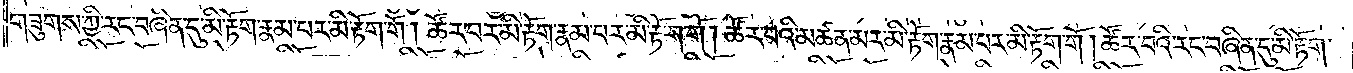གཟུགས་ཀྱི་རང་བཞིན་དུ་མི་རྟོག་རྣམ་པར་མི་རྟོག་གོ །ཚོར་བར་མི་རྟོག་རྣམ་པར་མི་རྟོག་གོ །ཚོར་བའི་མཚན་མར་མི་རྟོག་རྣམ་པར་མི་རྟོག་གོ །ཚོར་བའི་རང་བཞིན་དུ་མི་རྟོག་
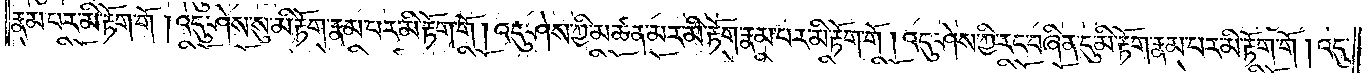རྣམ་པར་མི་རྟོག་གོ །འདུ་ཤེས་སུ་མི་རྟོག་རྣམ་པར་མི་རྟོག་གོ །འདུ་ཤེས་ཀྱི་མཚན་མར་མི་རྟོག་རྣམ་པར་མི་རྟོག་གོ །འདུ་ཤེས་ཀྱི་རང་བཞིན་དུ་མི་རྟོག་རྣམ་པར་མི་རྟོག་གོ །འདུ་
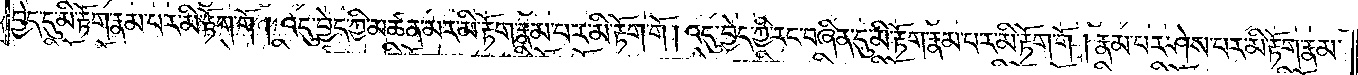བྱེད་དུ་མི་རྟོག་རྣམ་པར་མི་རྟོག་གོ །འདུ་བྱེད་ཀྱི་མཚན་མར་མི་རྟོག་རྣམ་བར་མི་རྟོག་གོ །འདུ་བྱེད་ཀྱི་རང་བཞིན་དུ་མི་རྟོག་རྣམ་པར་མི་རྟོག་གོ །རྣམ་པར་ཤེས་པར་མི་རྟོག་རྣམ་
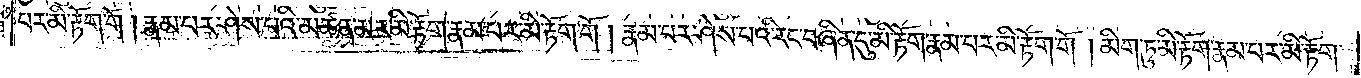པར་མི་རྟོག་གོ །རྣམ་པར་ཤེས་པའི་མཚན་མར་མི་རྟོག་རྣམ་པར་མི་རྟོག་གོ །རྣམ་པར་ཤེས་པའི་རང་བཞིན་དུ་མི་རྟོག་རྣམ་པར་མི་རྟོག་གོ །མིག་ཏུ་མི་རྟོག་རྣམ་པར་མི་རྟོག་
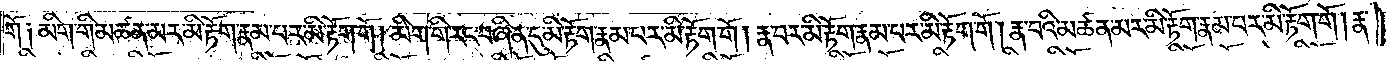གོ་༑མིག་གི་མཚན་མར་མི་རྟོག་རྣམ་པར་མི་རྟོག་གོ །མིག་གི་རང་བཞིན་དུ་མི་རྟོག་རྣམ་པར་མི་རྟོག་གོ །རྣ་བར་མི་རྟོག་རྣམ་པར་མི་རྟོག་གོ །རྣ་བའི་མཚན་མར་མི་རྟོག་རྣམ་པར་མི་རྟོག་གོ །རྣ་
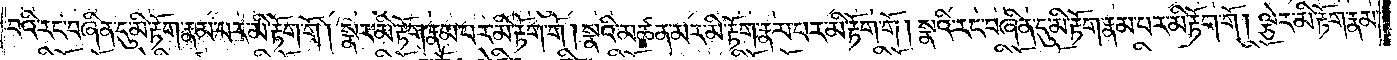བའི་རང་བཞིན་དུ་མི་རྟོག་རྣམ་པར་མི་རྟོག་གོ །སྣར་མི་རྟོག་རྣམ་པར་མི་རྟོག་གོ །སྣའི་མཚན་མར་མི་རྟོག་རྣམ་པར་མི་རྟོག་གོ །སྣའི་རང་བཞིན་དུ་མི་རྟོག་རྣམ་པར་མི་རྟོག་གོ །ལྕེར་མི་རྟོག་རྣམ་
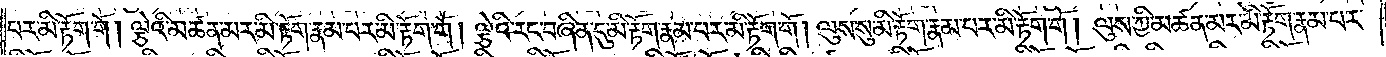པར་མི་རྟོག་གོ །ལྕེའི་མཚན་མར་མི་རྟོག་རྣམ་པར་མི་རྟོག་གོ །ལྕེའི་རང་བཞིན་དུ་མི་རྟོག་རྣམ་པར་མི་རྟོག་གོ །ལུས་སུ་མི་རྟོག་རྣམ་པར་མི་རྟོག་གོ །ལུས་ཀྱི་མཚན་མར་མི་རྟོག་རྣམ་པར་
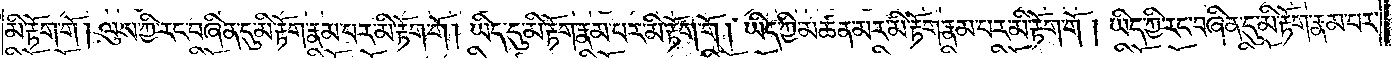མི་རྟོག་གོ །ལུས་ཀྱི་རང་བཞིན་དུ་མི་རྟོག་རྣམ་པར་མི་རྟོག་གོ །ཡིད་དུ་མི་རྟོག་རྣམ་པར་མི་རྟོག་གོ །ཡིད་ཀྱི་མཚན་མར་མི་རྟོག་རྣམ་པར་མི་རྟོག་གོ །ཡིད་ཀྱི་རང་བཞིན་དུ་མི་རྟོག་རྣམ་པར་
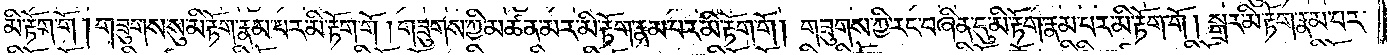མི་རྟོག་གོ །གཟུགས་སུ་མི་རྟོག་རྣམ་པར་མི་རྟོག་གོ །གཟུགས་ཀྱི་མཚན་མར་མི་རྟོག་རྣམ་པར་མི་རྟོག་གོ །གཟུགས་ཀྱི་རང་བཞིན་དུ་མི་རྟོག་རྣམ་པར་མི་རྟོག་གོ །སྒྲར་མི་རྟོག་རྣམ་པར་
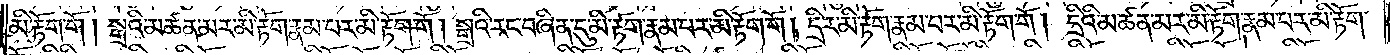མི་རྟོག་གོ །སྒྲའི་མཚན་མར་མི་རྟོག་རྣམ་པར་མི་རྟོག་གོ །སྒྲའི་རང་བཞིན་དུ་མི་རྟོག་རྣམ་པར་མི་རྟོག་གོ །དྲིར་མི་རྟོག་རྣམ་པར་མི་རྟོག་གོ །དྲིའི་མཚན་མར་མི་རྟོག་རྣམ་པར་མི་རྟོག་
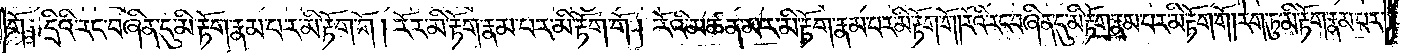གོ ༑དྲིའི་རང་བཞིན་དུ་མི་རྟོག་རྣམ་པར་མི་རྟོག་གོ །རོར་མི་རྟོག་རྣམ་པར་མི་རྟོག་གོ །རོའི་མཚན་མར་མི་རྟོག་རྣམ་པར་མི་རྟོག་གོ །རོའི་རང་བཞིན་དུ་མི་རྟོག་རྣམ་པར་མི་རྟོག་གོ །རེག་ཏུ་མི་རྟོག་རྣམ་པར་
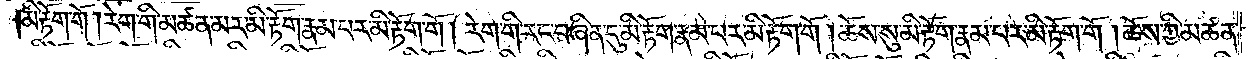མི་རྟོག་གོ །རེག་གི་མཚན་མར་མི་རྟོག་རྣམ་པར་མི་རྟོག་གོ །རེག་གི་རང་བཞིན་དུ་མི་རྟོག་རྣམ་པར་མི་རྟོག་གོ །ཆོས་སུ་མི་རྟོག་རྣམ་པར་མི་རྟོག་གོ །ཆོས་ཀྱི་མཚན་
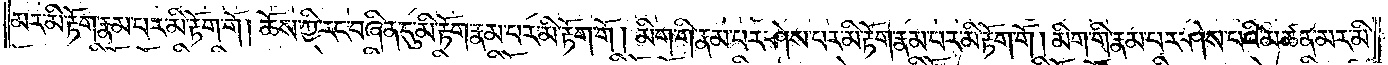མར་མི་རྟོག་རྣམ་པར་མི་རྟོག་གོ །ཆོས་ཀྱི་རང་བཞིན་དུ་མི་རྟོག་རྣམ་པར་མི་རྟོག་གོ །མིག་གི་རྣམ་པར་ཤེས་པར་མི་རྟོག་རྣམ་པར་མི་རྟོག་གོ །མིག་གི་རྣམ་པར་ཤེས་པའི་མཚན་མར་མི་
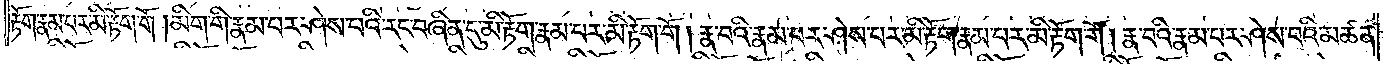རྟོག་རྣམ་པར་མི་རྟོག་གོ །མིག་གི་རྣམ་པར་ཤེས་པའི་རང་བཞིན་དུ་མི་རྟོག་རྣམ་པར་མི་རྟོག་གོ །རྣ་བའི་རྣམ་པར་ཤེས་པར་མི་རྟོག་རྣམ་པར་མི་རྟོག་གོ །རྣ་བའི་རྣམ་པར་ཤེས་པའི་མཚན་
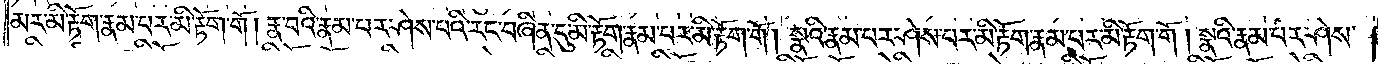མར་མི་རྟོག་རྣམ་པར་མི་རྟོག་གོ །རྣ་བའི་རྣམ་པར་ཤེས་པའི་རང་བཞིན་དུ་མི་རྟོག་རྣམ་པར་མི་རྟོག་གོ །སྣའི་རྣམ་པར་ཤེས་པར་མི་རྟོག་རྣམ་པར་མི་རྟོག་གོ །སྣའི་རྣམ་པར་ཤེས་
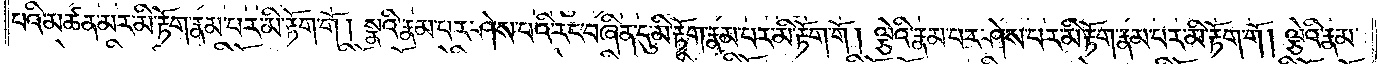པའི་མཚན་མར་མི་རྟོག་རྣམ་པར་མི་རྟོག་གོ །སྣའི་རྣམ་པར་ཤེས་པའི་རང་བཞིན་དུ་མི་རྟོག་རྣམ་པར་མི་རྟོག་གོ །ལྕེའི་རྣམ་པར་ཤེས་པར་མི་རྟོག་རྣམ་པར་མི་རྟོག་གོ །ལྕེའི་རྣམ་
